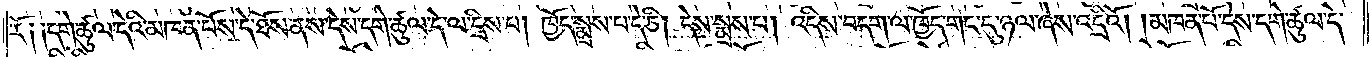རོ༑ ༑དགེ་ཚུལ་དེའི་མཁན་པོས་དེ་ཐོས་ནས་དེས་དགེ་ཚུལ་དེ་ལ་དྲིས་པ། ཁྱོད་སྨྲས་པ་དེ་ཅི། དེས་སྨྲས་པ། འདིས་བདག་ལ་ཁྱོད་གང་དུ་ཉལ་ཞེས་འདྲིའོ། །མཁན་པོ་དེས་དགེ་ཚུལ་དེ་
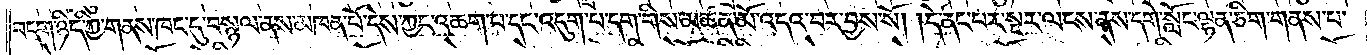བདག་ཉིད་ཀྱི་གནས་ཁང་དུ་བསྙལ་ནས་མཁན་པོ་དེས་ཀྱང་འཆག་པ་དང་འདུག་པ་དག་གིས་མཚན་མོ་འདའ་བར་བྱས་སོ། །དེ་ནང་པར་སྔར་ལངས་ནས་དགེ་སློང་ལྷན་ཅིག་གནས་པ་
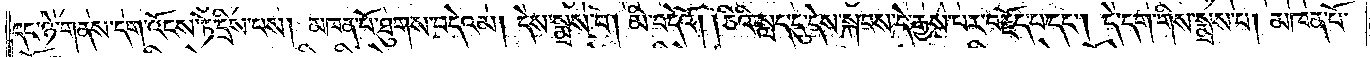དང་ཉེ་གནས་དག་འོངས་ཏེ་དྲིས་པས། མཁན་པོ་ཐུགས་བདེའམ། དེས་སྨྲས་པ། མི་བདེའོ། །ཅིའི་སླད་དུ་དེས་སྐབས་དེ་རྒྱས་པར་བརྗོད་པ་དང༌། དེ་དག་གིས་སྨྲས་པ། མཁན་པོ་
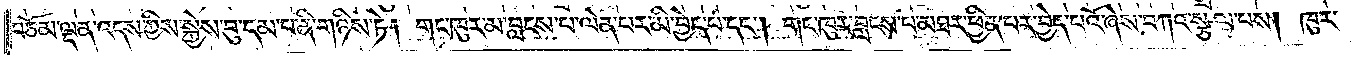བཅོམ་ལྡན་འདས་ཀྱིས་སྐྱེས་བུ་དམ་པ་ནི་གཉིས་ཏེ། གང་ཁུར་མ་བླངས་པ་ལེན་པར་མི་བྱེད་པ་དང༌། གང་ཁུར་བླངས་པ་མཐར་ཕྱིན་པར་བྱེད་པའོ་ཞེས་བཀའ་སྩལ་པས། ཁུར་
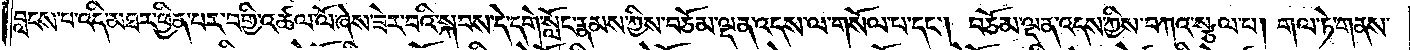བླངས་པ་འདི་མཐར་ཕྱིན་པར་བགྱི་འཚལ་ལོ་ཞེས་ཟེར་བའི་སྐབས་དེ་དགེ་སློང་རྣམས་ཀྱིས་བཅོམ་ལྡན་འདས་ལ་གསོལ་པ་དང༌། བཅོམ་ལྡན་འདས་ཀྱིས་བཀའ་སྩལ་པ། གལ་ཏེ་གནས་
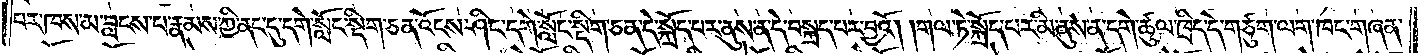པར་ཁས་མ་བླངས་པ་རྣམས་ཀྱི་ནང་དུ་དགེ་སློང་སྡིག་ཅན་འོངས་ཤིང་དགེ་སློང་སྡིག་ཅན་དེ་སྐྲོད་པར་ནུས་ན་དེ་བསྐྲད་པར་བྱའོ། །གལ་ཏེ་སྐྲོད་པར་མི་ནུས་ན་དགེ་ཚུལ་ཁྲིད་དེ་གཙུག་ལག་ཁང་གཞན་
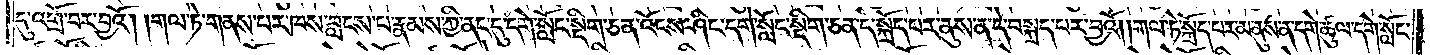དུ་འགྲོ་བར་བྱའོ། །གལ་ཏེ་གནས་པར་ཁས་བླངས་པ་རྣམས་ཀྱི་ནང་དུ་དགེ་སློང་སྡིག་ཅན་འོངས་ཤིང་དགེ་སློང་སྡིག་ཅན་དེ་སྐྲོད་པར་ནུས་ན་དེ་བསྐྲད་པར་བྱའོ། །གལ་ཏེ་སྐྲོད་པར་མ་ནུས་ན་དགེ་ཚུལ་དགེ་སློང་
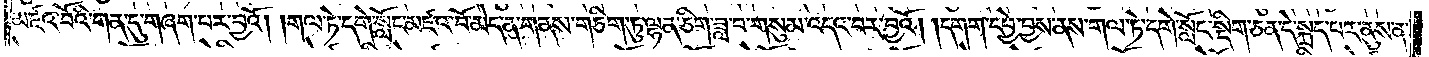མཛའ་བོའི་གན་དུ་གཞག་པར་བྱའོ། །གལ་ཏེ་དགེ་སློང་མཛའ་བོ་མེད་ན་གནས་གཅིག་ཏུ་ལྷན་ཅིག་ཟླ་བ་གསུམ་འདའ་བར་བྱའོ། །དགག་དབྱེ་བྱས་ནས་གལ་ཏེ་དགེ་སློང་སྡིག་ཅན་དེ་སྐྲད་པར་ནུས་ན་
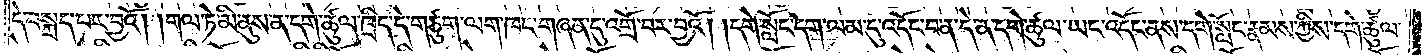དེ་བསྐྲད་པར་བྱའོ། །གལ་ཏེ་མི་ནུས་ན་དགེ་ཚུལ་ཁྲིད་དེ་གཙུག་ལག་ཁང་གཞན་དུ་འགྲོ་བར་བྱའོ། །དགེ་སློང་དག་ལམ་དུ་འདོང་བ་ན་དེ་ན་དགེ་ཚུལ་ཡང་འདོང་ནས་དགེ་སློང་རྣམས་ཀྱིས་དགེ་ཚུལ་
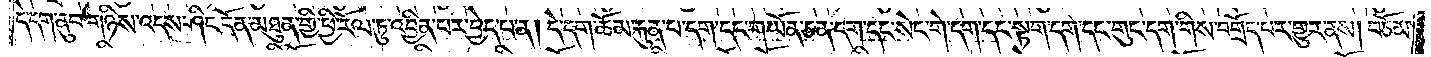དེ་དག་ནུབ་གཉིས་འདས་ཤིང་དོན་མཐུན་གྱི་ཕྱི་རོལ་ཏུ་འབྱིན་པར་བྱེད་པ་ན། དེ་དག་ཆོམ་རྐུན་པ་དག་དང་གཡོན་ཅན་དག་དང་སེང་གེ་དག་དང་སྟག་དག་དང་གུང་དག་གིས་བགྲོད་པར་གྱུར་ནས། བཅོམ་
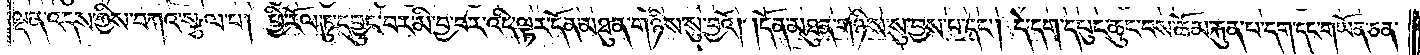ལྡན་འདས་ཀྱིས་བཀའ་སྩལ་པ། ཕྱི་རོལ་ཏུ་དབྱུང་བར་མི་བྱ་བར་འདི་ལྟར་དོན་མཐུན་གཉིས་སུ་བྱའོ། །དོན་མཐུན་གཉིས་སུ་བྱས་པ་དང༌། དེ་དག་དཔུང་ཆུང་བས་ཆོམ་རྐུན་པ་དག་དང་གཡོན་ཅན་
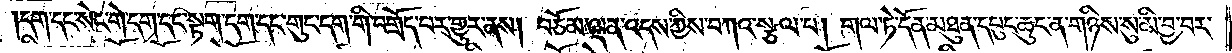དག་དང་སེང་གེ་དག་དང་སྟག་དག་དང་གུང་དག་གི་བགྲོད་པར་གྱུར་ནས། བཅོམ་ལྡན་འདས་ཀྱིས་བཀའ་སྩལ་པ། གལ་ཏེ་དོན་མཐུན་དཔུང་ཆུང་ན་གཉིས་སུ་མི་བྱ་བར་
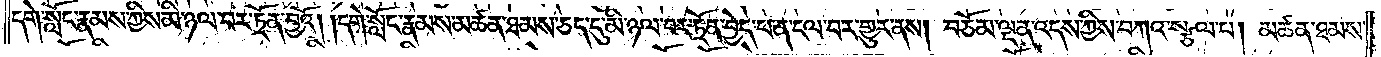དགེ་སློང་རྣམས་ཀྱིས་མི་ཉལ་བར་ཏྲོན་བྱའོ། །དགེ་སློང་རྣམས་མཚན་ཐམས་ཅད་དུ་མི་ཉལ་བར་ཏྲོན་བྱེད་པ་ན་ངལ་བར་གྱུར་ནས། བཅོམ་ལྡན་འདས་ཀྱིས་བཀའ་སྩལ་པ། མཚན་ཐམས་
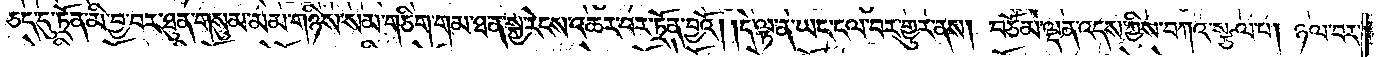ཅད་དུ་ཏྲོན་མི་བྱ་བར་ཐུན་གསུམ་མམ་གཉིས་སམ་གཅིག་གམ་ཐ་ན་སྐྱ་རེངས་འཆར་བར་ཏྲོན་བྱའོ། །དེ་ལྟ་ན་ཡང་ངལ་བར་གྱུར་ནས། བཅོམ་ལྡན་འདས་ཀྱིས་བཀའ་སྩལ་པ། ཉལ་བར་
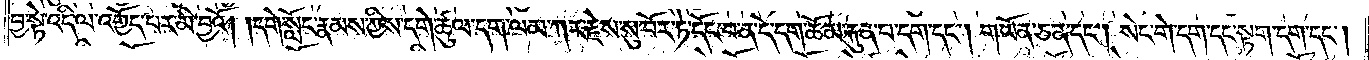བྱ་སྟེ་འདི་ལ་འགྱོད་པར་མི་བྱའོ། །དགེ་སློང་རྣམས་ཀྱིས་དགེ་ཚུལ་དག་ལམ་ཀར་རྗེས་སུ་བོར་ཏེ་དོང་བ་ན་དེ་དག་ཆོམ་རྐུན་པ་དག་དང༌། གཡོན་ཅན་དང༌། སེང་གེ་དག་དང་སྟག་དག་དང༌།
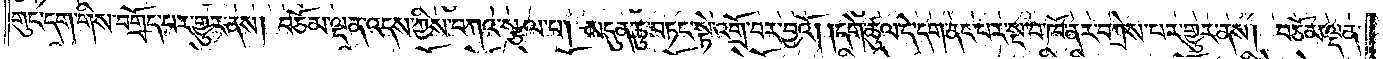གུང་དག་གིས་བགྲོད་པར་གྱུར་ནས། བཅོམ་ལྡན་འདས་ཀྱིས་བཀའ་སྩལ་པ། མདུན་ཏུ་བཏང་སྟེ་འགྲོ་བར་བྱའོ། །དགེ་ཚུལ་དེ་དག་ནང་པར་སྔ་བ་ཁོ་ནར་བཀྲེས་པར་གྱུར་ནས། བཅོམ་ལྡན་
